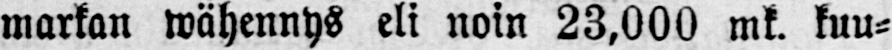markan wähennys eli noin 23,000 mk. kuu-
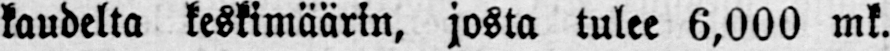kaudelta keskimäärin, josta tulee 6,000 mk.
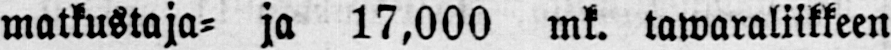matkustaja- ja 17,000 mk. tawaraliikkeen
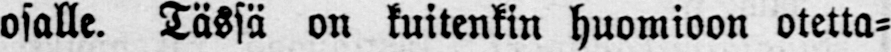osalle. Tässä on kuitenkin huomioon oletta-
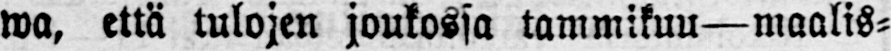wa, että tulojen joukossa tammikuu —maalis-
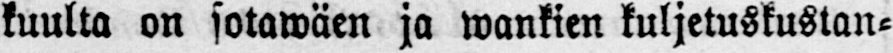kuulta on sotawäen ja wankien kuljetuskustan-
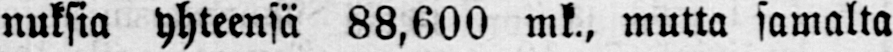nuksia yhteensä 88,600 mk., mutta samalta
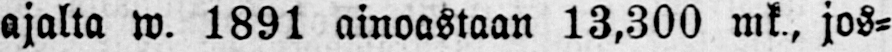ajalta w. 1891 ainoastaan 13,300 mk,, jos-
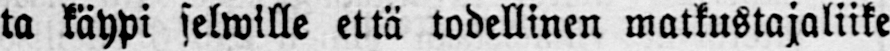ta käypi selwille että todellinen matkustajaliike
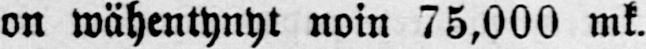on wähentynyt noin 75,000 mk.
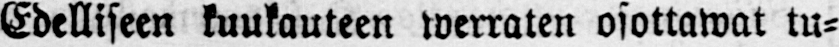Edelliseen kuukauteen werraten osottawat tu-
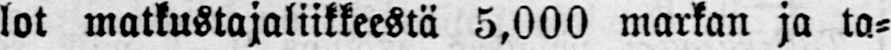lot matkustajaliikkeestä 5,000 markan ja ta-
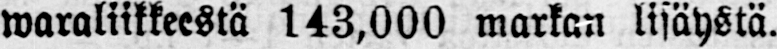waraliikkeestä 143,000 markan lisäystä.
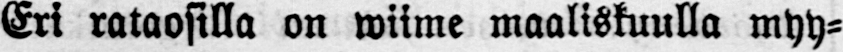Eri rataosilla on wiime maaliskuulla myy-
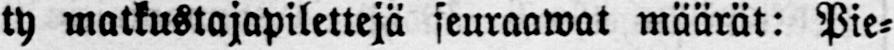ty matkustajapilettejä seuraawat määrät: Pie-
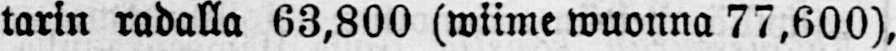tarin radalla 63,800 (wiime wuonna 77,600),
